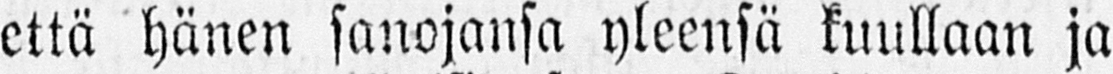että hänen sanojansa yleensä kuullaan ja
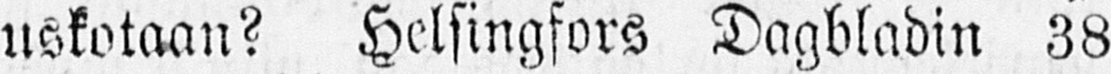uskotaan? Helsingfors Dagbladin 38
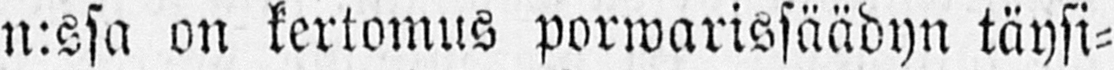n:ssa on kertomus porwarissäädyn täysi-
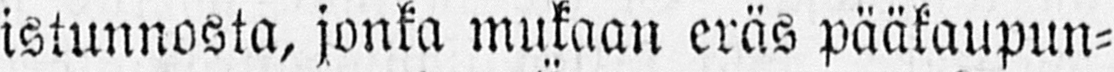istunnosta, jonka mukaan eräs pääkaupun-
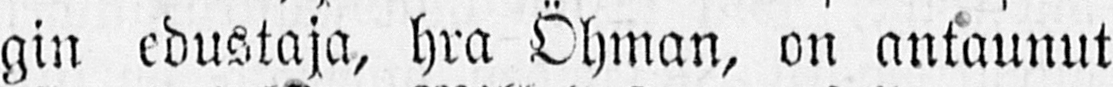gin edustaja, hra Öhman, on antaunut
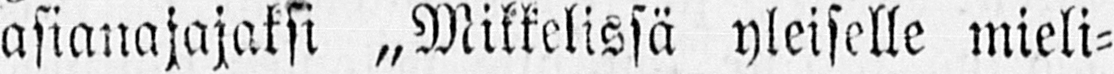asianajajaksi „Mikkelissä yleiselle mieli-
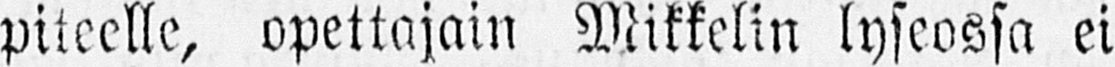piteelle, opettajain Mikkelin lyseossa ei
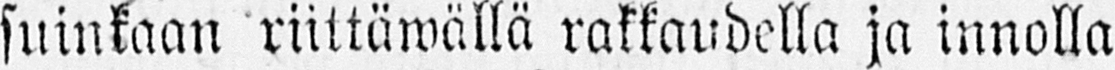suinkaan riittäwällä rakkaudella ja innolla
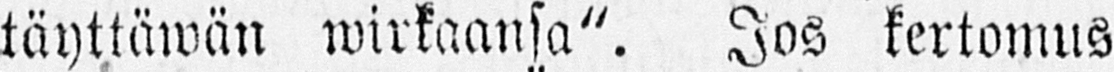täyttäwän wirkaansa". Jos kertomus
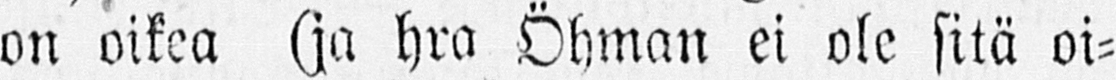on oikea (ja hra Öhman ei ole sitä oi-
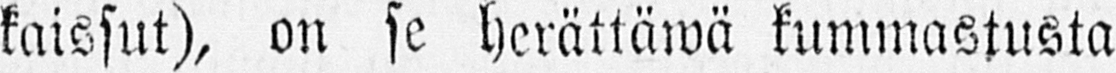kaissut), on se herättäwä kummastusta
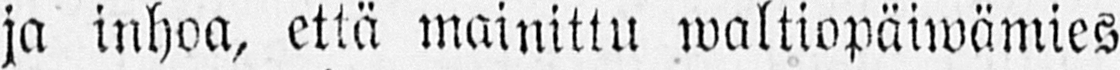ja inhoa, että mainittu waltiopäiwämies
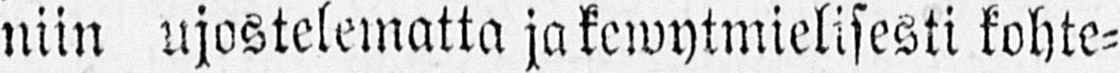niin ujostelematta ja kewytmielisesti kohte-
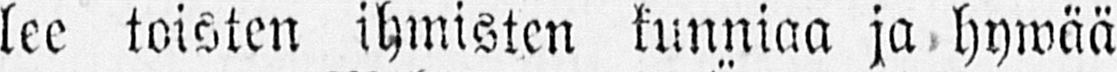lee toisten ihmisten kunniaa ja hywää
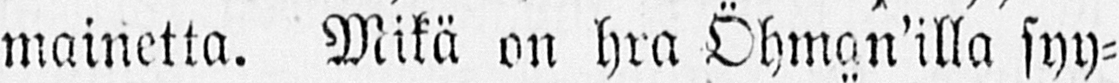mainetta. Mikä on hra Öhman'illa syy-
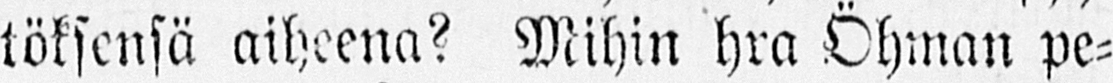töksensä aiheena? Mihin hra Öhman pe-
